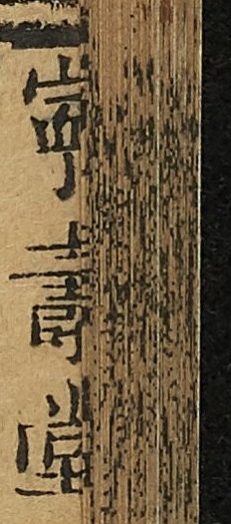寧壽堂
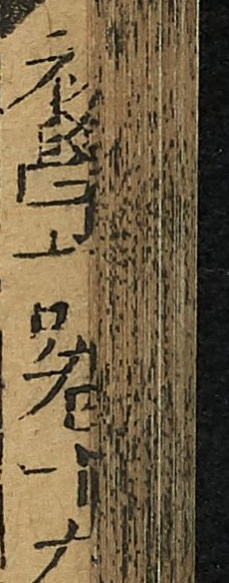初學記卷十九
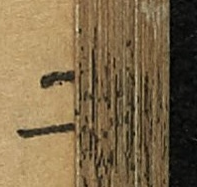二
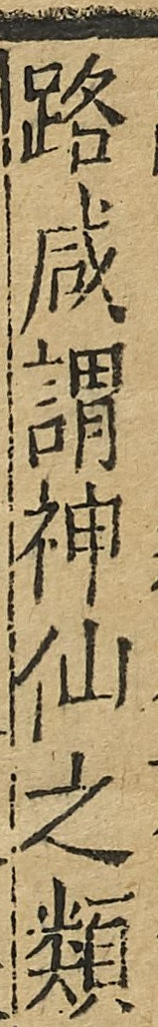路咸謂神仙之類
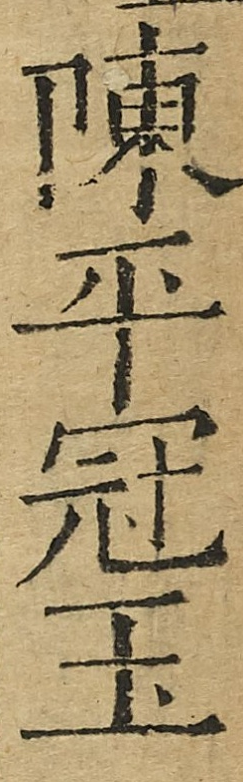陳平冠玉
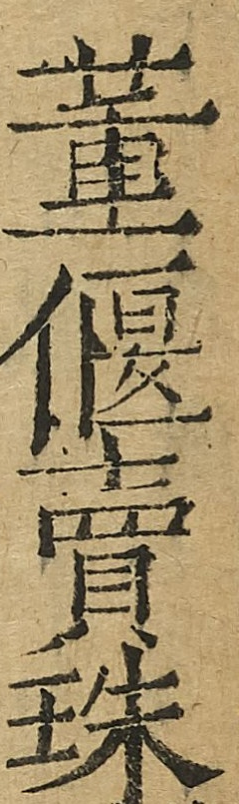董偃賣珠
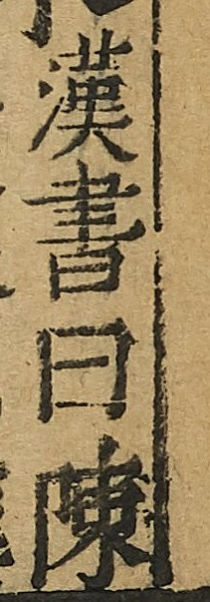漢書曰陳
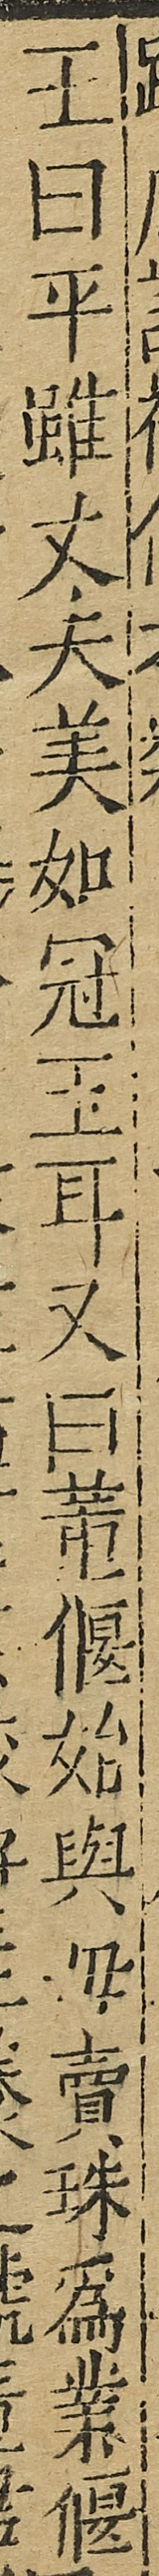王曰平雖丈夫美如冠玉耳又曰董偃始與母賣珠為業偃
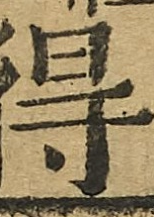得
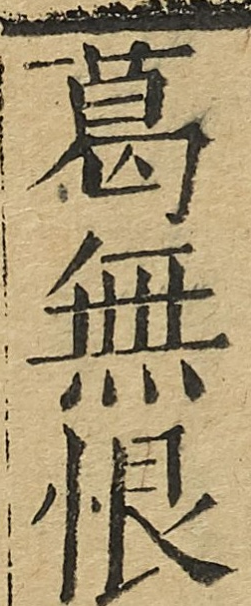葛無恨
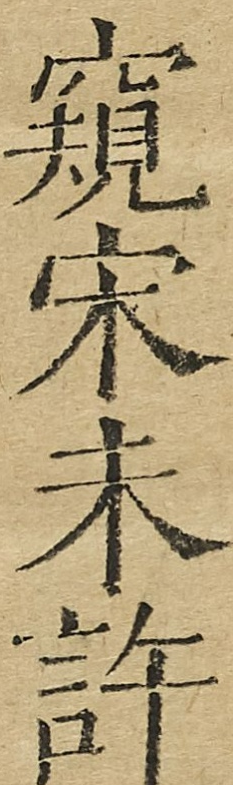窺宋末許
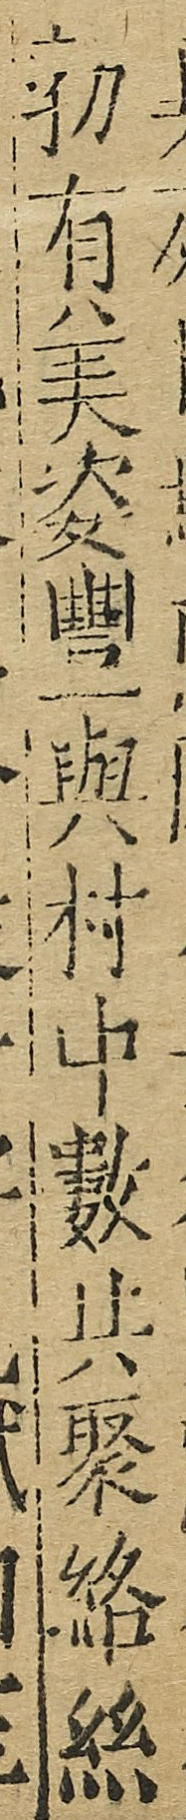勃有美姿豐與村中數共聚絡絲
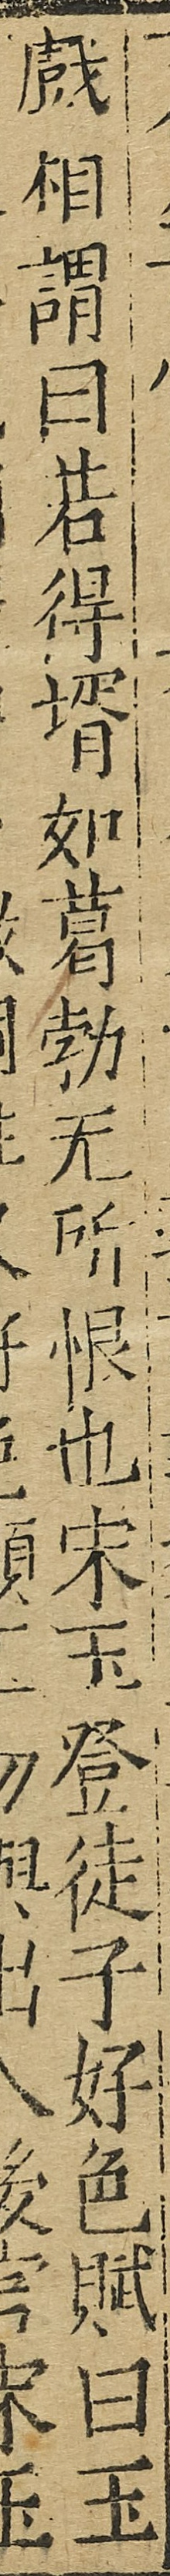戲相謂曰若得壻如葛勃無所恨也宋玉登徒子好色賦曰玉
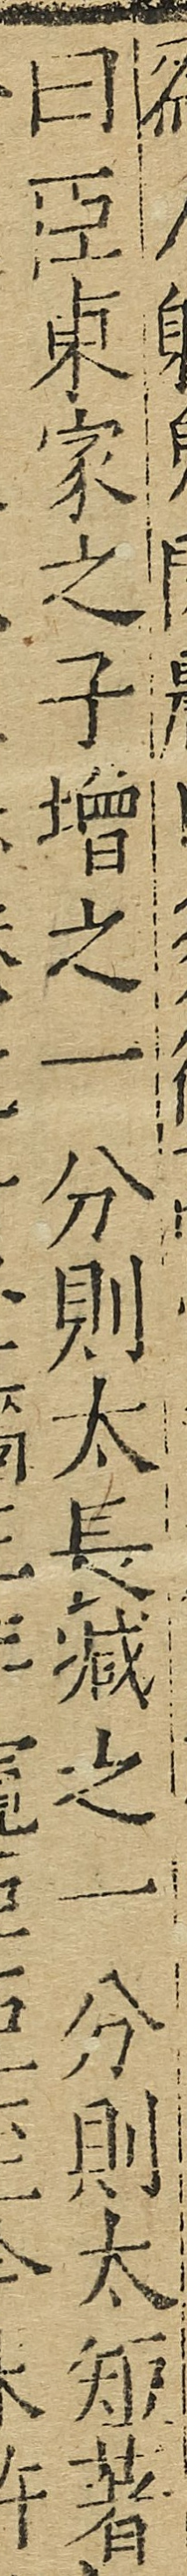曰臣東家之子增之一分則太長減之一分則太短著
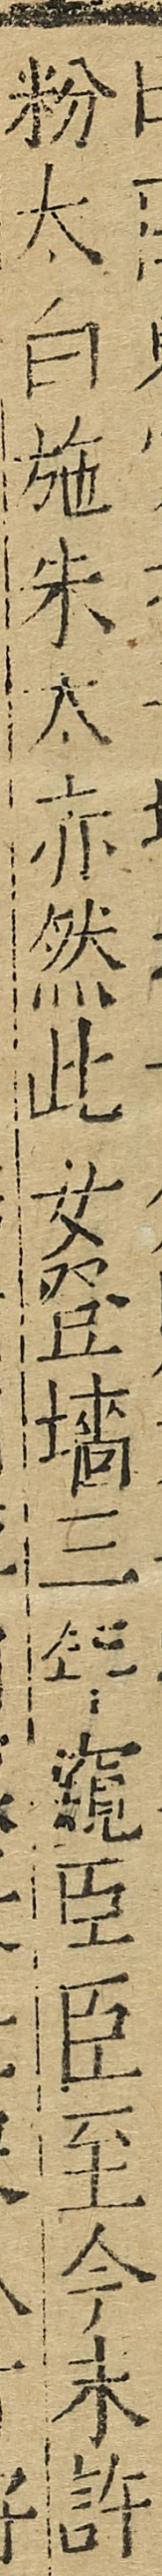粉太白施朱太赤然此女登墻三年窺臣臣至今末許
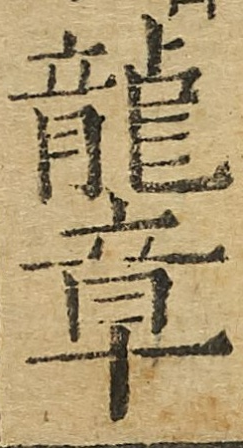龍章
